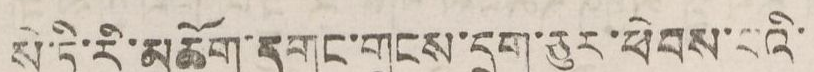སེ་ཏི་རི་མཆོག་དགུང་གྲངས་དྲུག་ཅུར་ཕེབས་པའི་
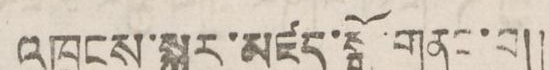འཁྲུངས་སྐར་མཛད་སྒོ་གནང་བ།།
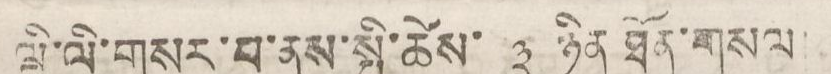ལྡི་ལི་གསར་བ་ནས་སྤྱི་ཚེས་ ༣ ཉིན་ཐོན་གསལ་
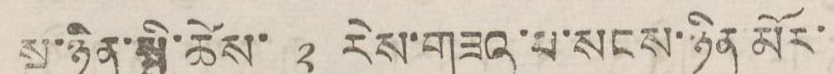སྔ་ཉིན་སྤྱི་ཚེས་ ༢ རེས་གཟའ་པ་སངས་ཉིན མོར་
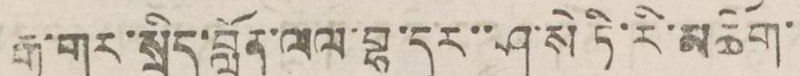རྒྱ་གར་སྲིད་བློན་ལལ་བྷ་དུར་་ཤ་སེ་ཏི་རི་མཆོག་
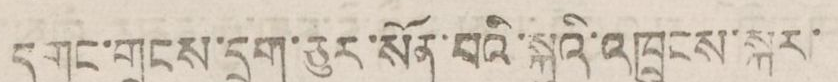དགུང་གྲངས་དྲུག་ཅུར་སོན་པའི་སྐུའི་འཁྲུངས་སྐར་
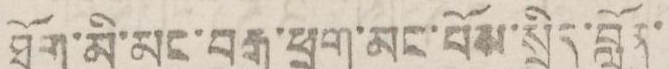ཐོག་མི་མང་བརྒྱ་ཕྲག་མང་པོས་སྲིད་བློན་
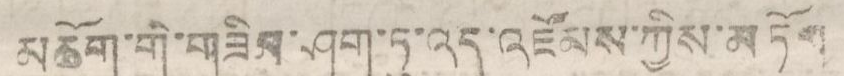མཆོག་གི་གཟིམ་ཤག་ཏུ་འདུ་འཛོམས་ཀྱིས་མཏོག
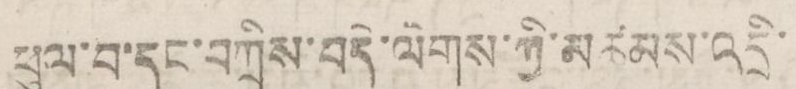ཕུལ་བ་དང་བཀྲིས་བདེ་ལེགས་ཀྱི་མཚམས་འདྲི་
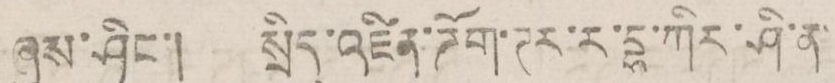ཞུས་ཤིང་། སྲིད་འཛིན་ཌོག་ཊར་ར་དྷ་ཀིར་ཤི་ན་
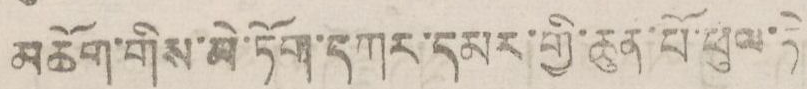མཆོག་གིས་མེ་ཏོག་དཀར་དམར་གྱི་ཆུན་པོ་ཕུལ་ཏེ
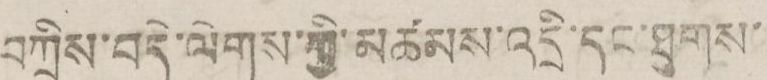བཀྲིས་བདེ་ལེགས་ཀྱི་མཚམས་འདྲི་དང་ཐུགས་
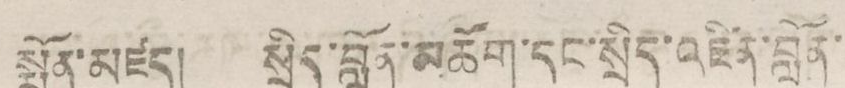སྨོན་མཛད། སྲིད་བློན་མཆོག་དང་སྲིད་འཛིན་བློན་
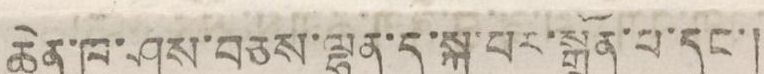ཆེན་ཁ་ཤས་བཅས་ལྷན་དུ་སྐུ་པར་སྒྲོན་པ་དང་།
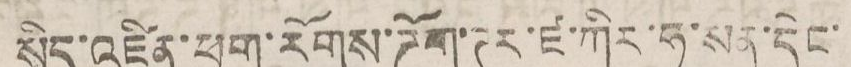སྲིད་འཛིན་ཕྱག་རོགས་ཌོག་ཊར་ཛ་ཀིར་ཧུ་སན་དེང་
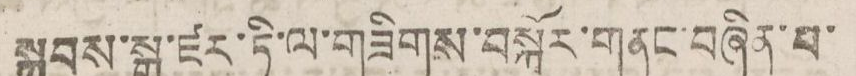སྐབས་སྒུ་ཛར་ཏི་ལ་གཟིགས་བསྐོར་གནང་བཞིན་པ་
